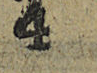4
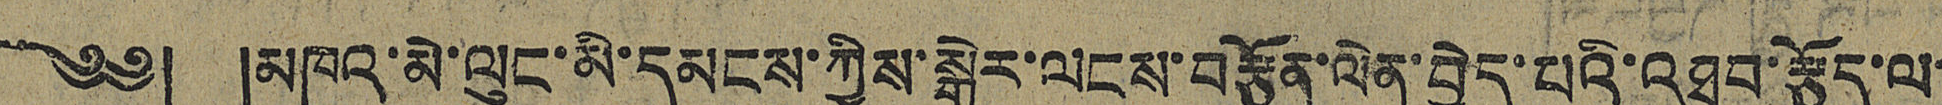༄༅། །མཁའ་མེ་ལུང་མི་དམངས་ཀྱིས་སྒེར་ལངས་བརྩོན་ལེན་བྱེད་པའི་འཐབ་རྩོད་ལ་
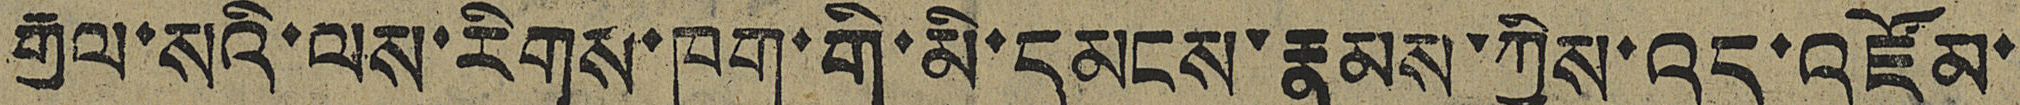རྒྱལ་སའི་ལས་རིགས་ཁག་གི་མི་དམངས་རྣམས་ཀྱིས་འདུ་འཛོམ་
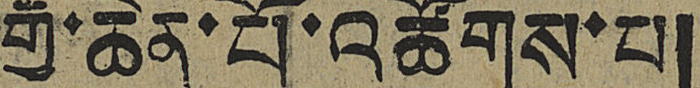རྒྱ་ཆེན་པོ་འཚོགས་པ།
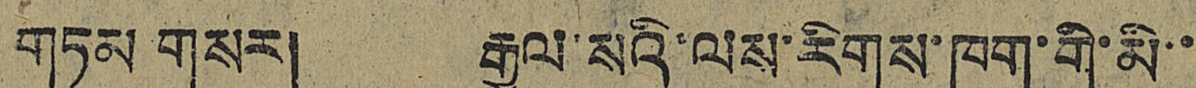གཏམ གསར། རྒྱལ་སའི་ལས་རིགས་ཁག་གི་མི་་
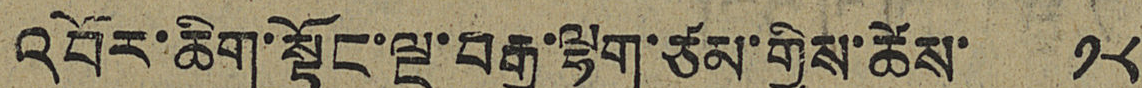འབོར་ཆིག་སྟོང་ལྔ་བརྒྱ་ལྷག་ཙམ་གྱིས་ཚེས་ ༡༨
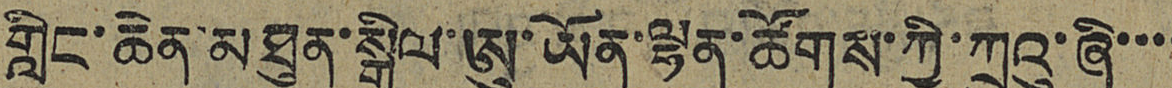གླིང་ཆེན་མཐུན་སྒྲིལ་ཨུ་ཡོན་ལྷན་ཚོགས་ཀྱི་ཀྲུའུ་ཞི་་་་
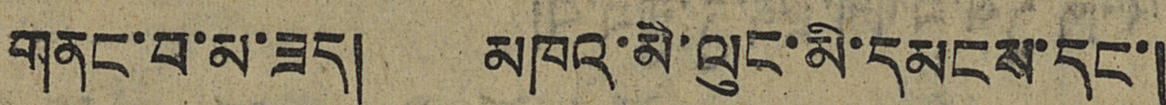གནང་བ་མ་ཟད། མཁའ་མེ་ལུང་མི་དམངས་དང་།
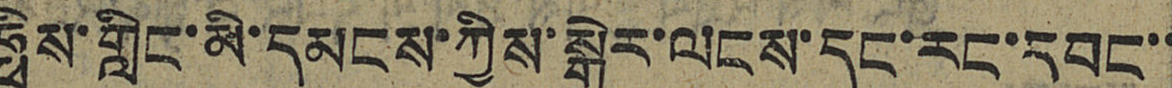ཧྥིལ་གླིང་མི་དམངས་ཀྱིས་སྒེར་ལངས་དང་རང་དབང་་
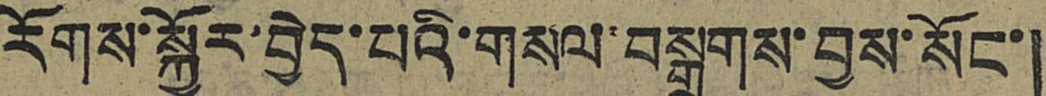རོགས་སྐྱོར་བྱེད་པའི་གསལ་བསྒྲགས་བྱས་སོང་།
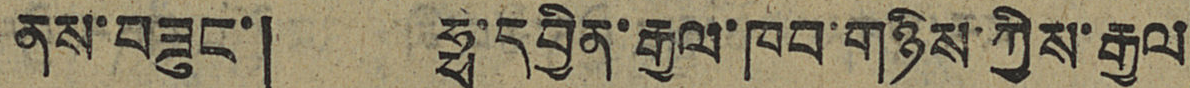ནས་བཟུང་། ཧྥ་དབྱིན་རྒྱལ་ཁབ་གཉིས་ཀྱིས་རྒྱལ་
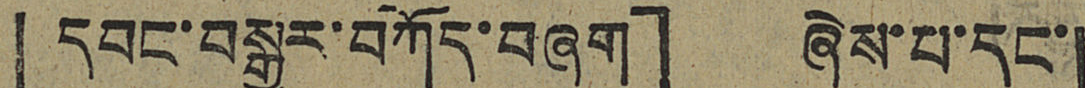「དབང་བསྒྱུར་བཀོད་བཞག」 ཞེས་པ་དང་།
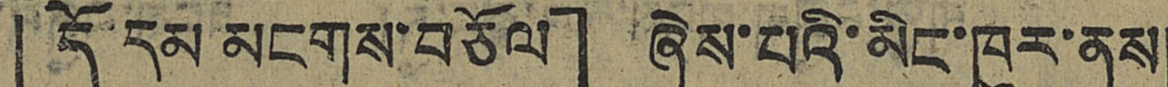「དོ་དམ མངགས་བཅོལ」 ཞེས་པའི་མིང་ཁུར་ནས།
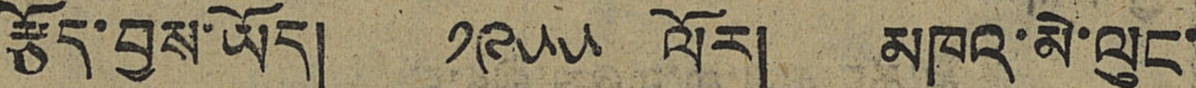རྩོད་བྱས་ཡོད། ༡༩༥༥ ལོར། མཁའ་མེ་ལུང་
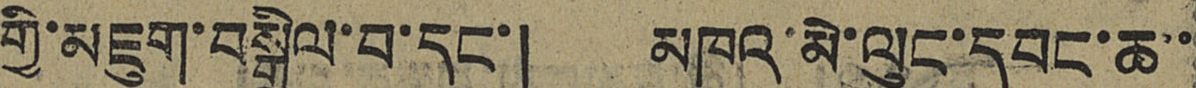གྱི་མཇུག་བསྒྲིལ་བ་དང་། མཁའ་མེ་ལུང་དབང་ཆ་་
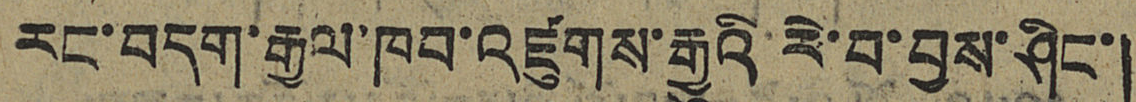རང་བདག་རྒྱལ་ཁབ་འཛུགས་རྒྱུའི་རེ་བ་བྱས་ཤིང་།
